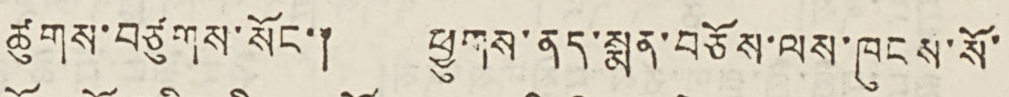ཚུགས་བཙུགས་སོང་། ཕྱུགས་ནད་སྨན་བཅོས་ལས་ཁུངས་སོ་
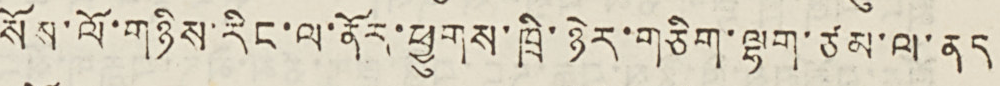སོས་ལོ་གཉིས་རིང་ལ་ནོར་ཕྱུགས་ཁྲི་ཉེར་གཅིག་ལྷག་ཙམ་ལ་ནད
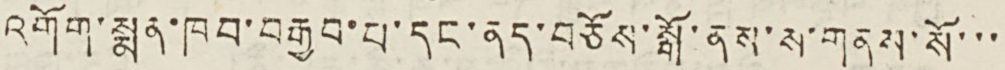འགོག་སྨན་ཁབ་བརྒྱབ་པ་དང་ནད་བཅོས་སྒོ་ནས་ས་གནས་སོ་་་
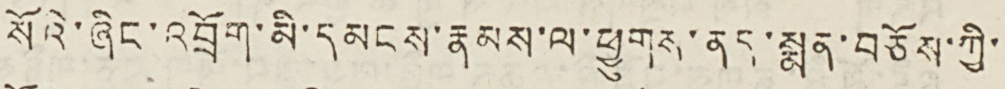སོའི་ཞིང་འབྲོག་མི་དམངས་རྣམས་ལ་ཕྱུགས་ནད་སྨན་བཅོས་ཀྱི་
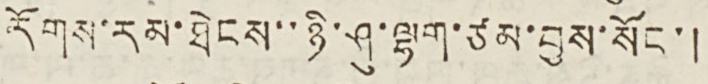རོགས་རམ་ཐེངས་་ཉི་ཤུ་ལྷག་ཙམ་བྱས་སོང་།
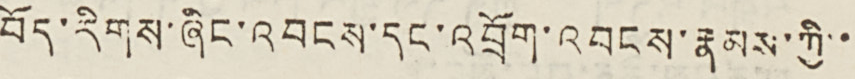བོད་རིགས་ཞིང་འབངས་དང་འབྲོག་འབངས་རྣམས་ཀྱི་་
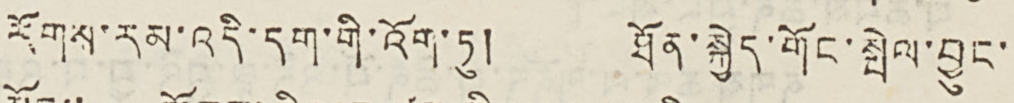རོགས་རམ་འདི་དག་གི་འོག་ཏུ། ཐོན་སྐྱེད་གོང་སྤེལ་བྱུང་
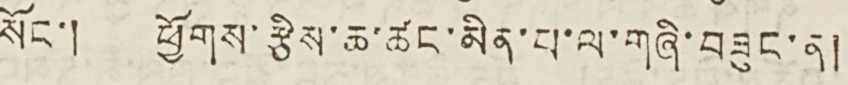སོང་། ཕྱོགས་རྩིས་ཆ་ཚང་མིན་པ་ལ་གཞི་བཟུང་ན།
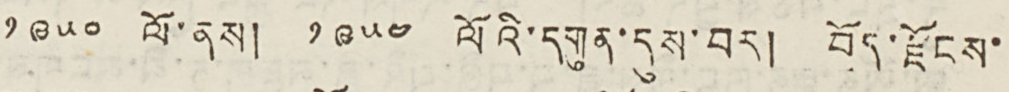༡༩༥༠ ལོ་ནས། ༡༩༥༤ ལོའི་དགུན་དུས་པར། བོད་ལྗོངས་
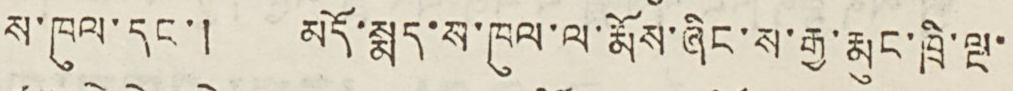ས་ཁུལ་དང་། མདོ་སྨད་ས་ཁུལ་ལ་རྨོས་ཞིང་ས་རྒྱ་རྨུང་ཁྲི་ལྔ་
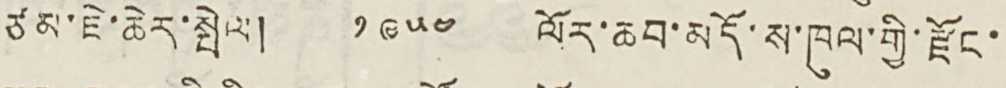ཙམ་ཇེ་ཆེར་སྤེལ། ༡༩༥༤ ལོར་ཆབ་མདོ་ས་ཁུལ་གྱི་རྫོང་
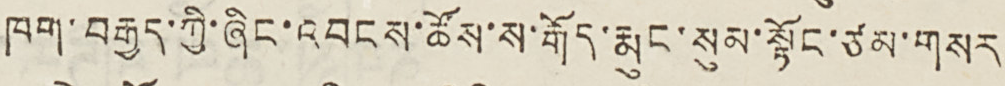ཁག་བརྒྱད་ཀྱི་ཞིང་འབངས་ཚོས་ས་རྒོད་རྨུང་སུམ་སྟོང་ཙམ་གསར
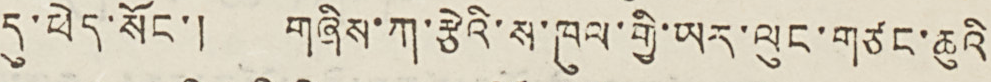དུ་ཕེད་སོང་། གཞིས་ཀ་རྩེའི་ས་ཁུལ་གྱི་ཡར་ལུང་གཙང་ཆུའི
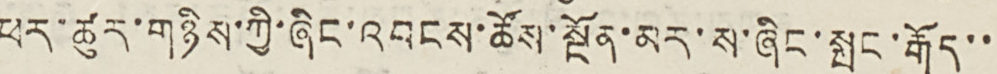ཕར་ཚུར་གཉིས་ཀྱི་ཞིང་འབངས་ཚོས་སྔོན་མར་ས་ཞིང་སྤང་རྒོད་་
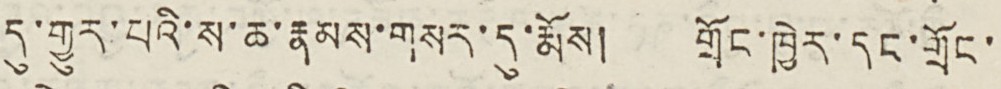དུ་གྱུར་པའི་ས་ཆ་རྣམས་གསར་དུ་རྨོས། གྲོང་ཁྱེར་དང་གྲོང་
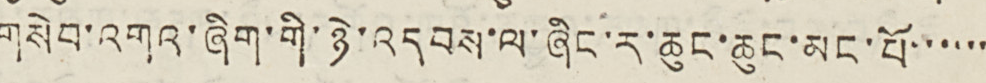གསེབ་འགའ་ཞིག་གི་ཉེ་འདབས་ལ་ཞིང་ར་ཆུང་ཆུང་མང་པོ་་་་་་
